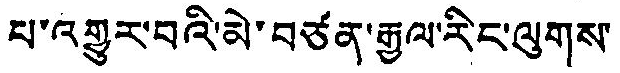པ་འགྱུར་བའི་མེ་བཙན་རྒྱལ་རིང་ལུགས་
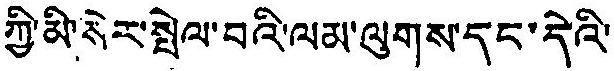ཀྱི་མི་སེར་སྤེལ་བའི་ལམ་ལུགས་དང་དེའི་
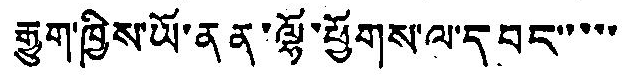རྒྱུག་ཁྱིས་ཡོ་ནན་ལྷོ་ཕྱོགས་ལ་དབང་་་་་
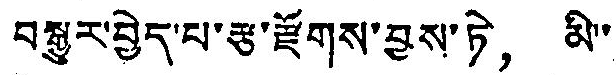བསྒྱུར་བྱེད་པ་རྩ་རྫོགས་བྱས་ཏེ， མི་
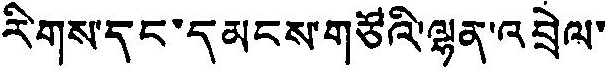རིགས་དང་དམངས་གཙོའི་ལྷན་འབྲེལ་
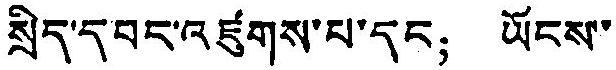སྲིད་དབང་འཛུགས་པ་དང； ཡོངས་
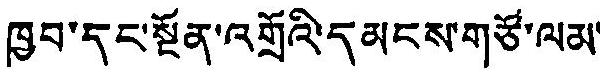ཁྱབ་དང་སྔོན་འགྲོའི་དམངས་གཙོ་ལམ་
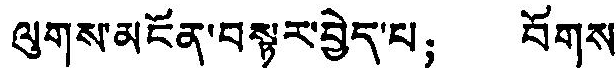ལུགས་མངོན་བསྟར་བྱེད་པ； བོགས་
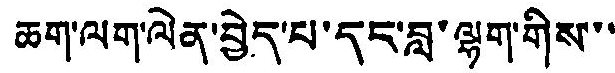ཆག་ལག་ལེན་བྱེད་པ་དང་བླ་ལྷག་གིས་་
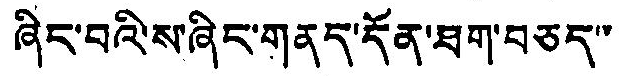ཞིང་བའི་ས་ཞིང་གནད་དོན་ཐག་བཅད་་
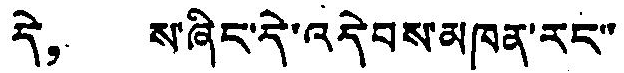དེ， ས་ཞིང་དེ་འདེབས་མཁན་རང་་
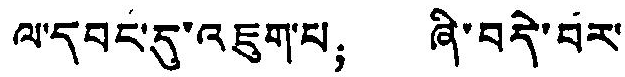ལ་དབང་དུ་འཇུག་པ； ཞི་བདེ་བར་
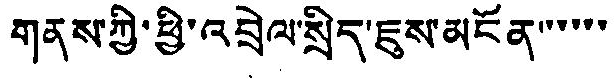གནས་ཀྱི་ཕྱི་འབྲེལ་སྲིད་ཇུས་མངོན་་་་་་
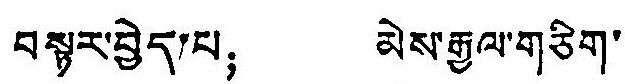བསྟར་བྱེད་པ； མེས་རྒྱལ་གཅིག་
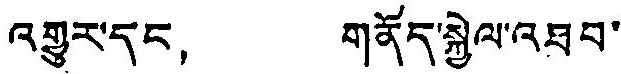འགྱུར་དང， གནོད་སྐྱེལ་འཐབ་
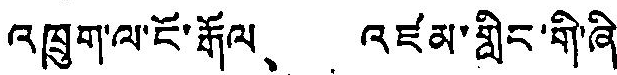འཁྲུག་ལ་ངོ་རྒོལ、 འཛམ་གླིང་གི་ཞི་
